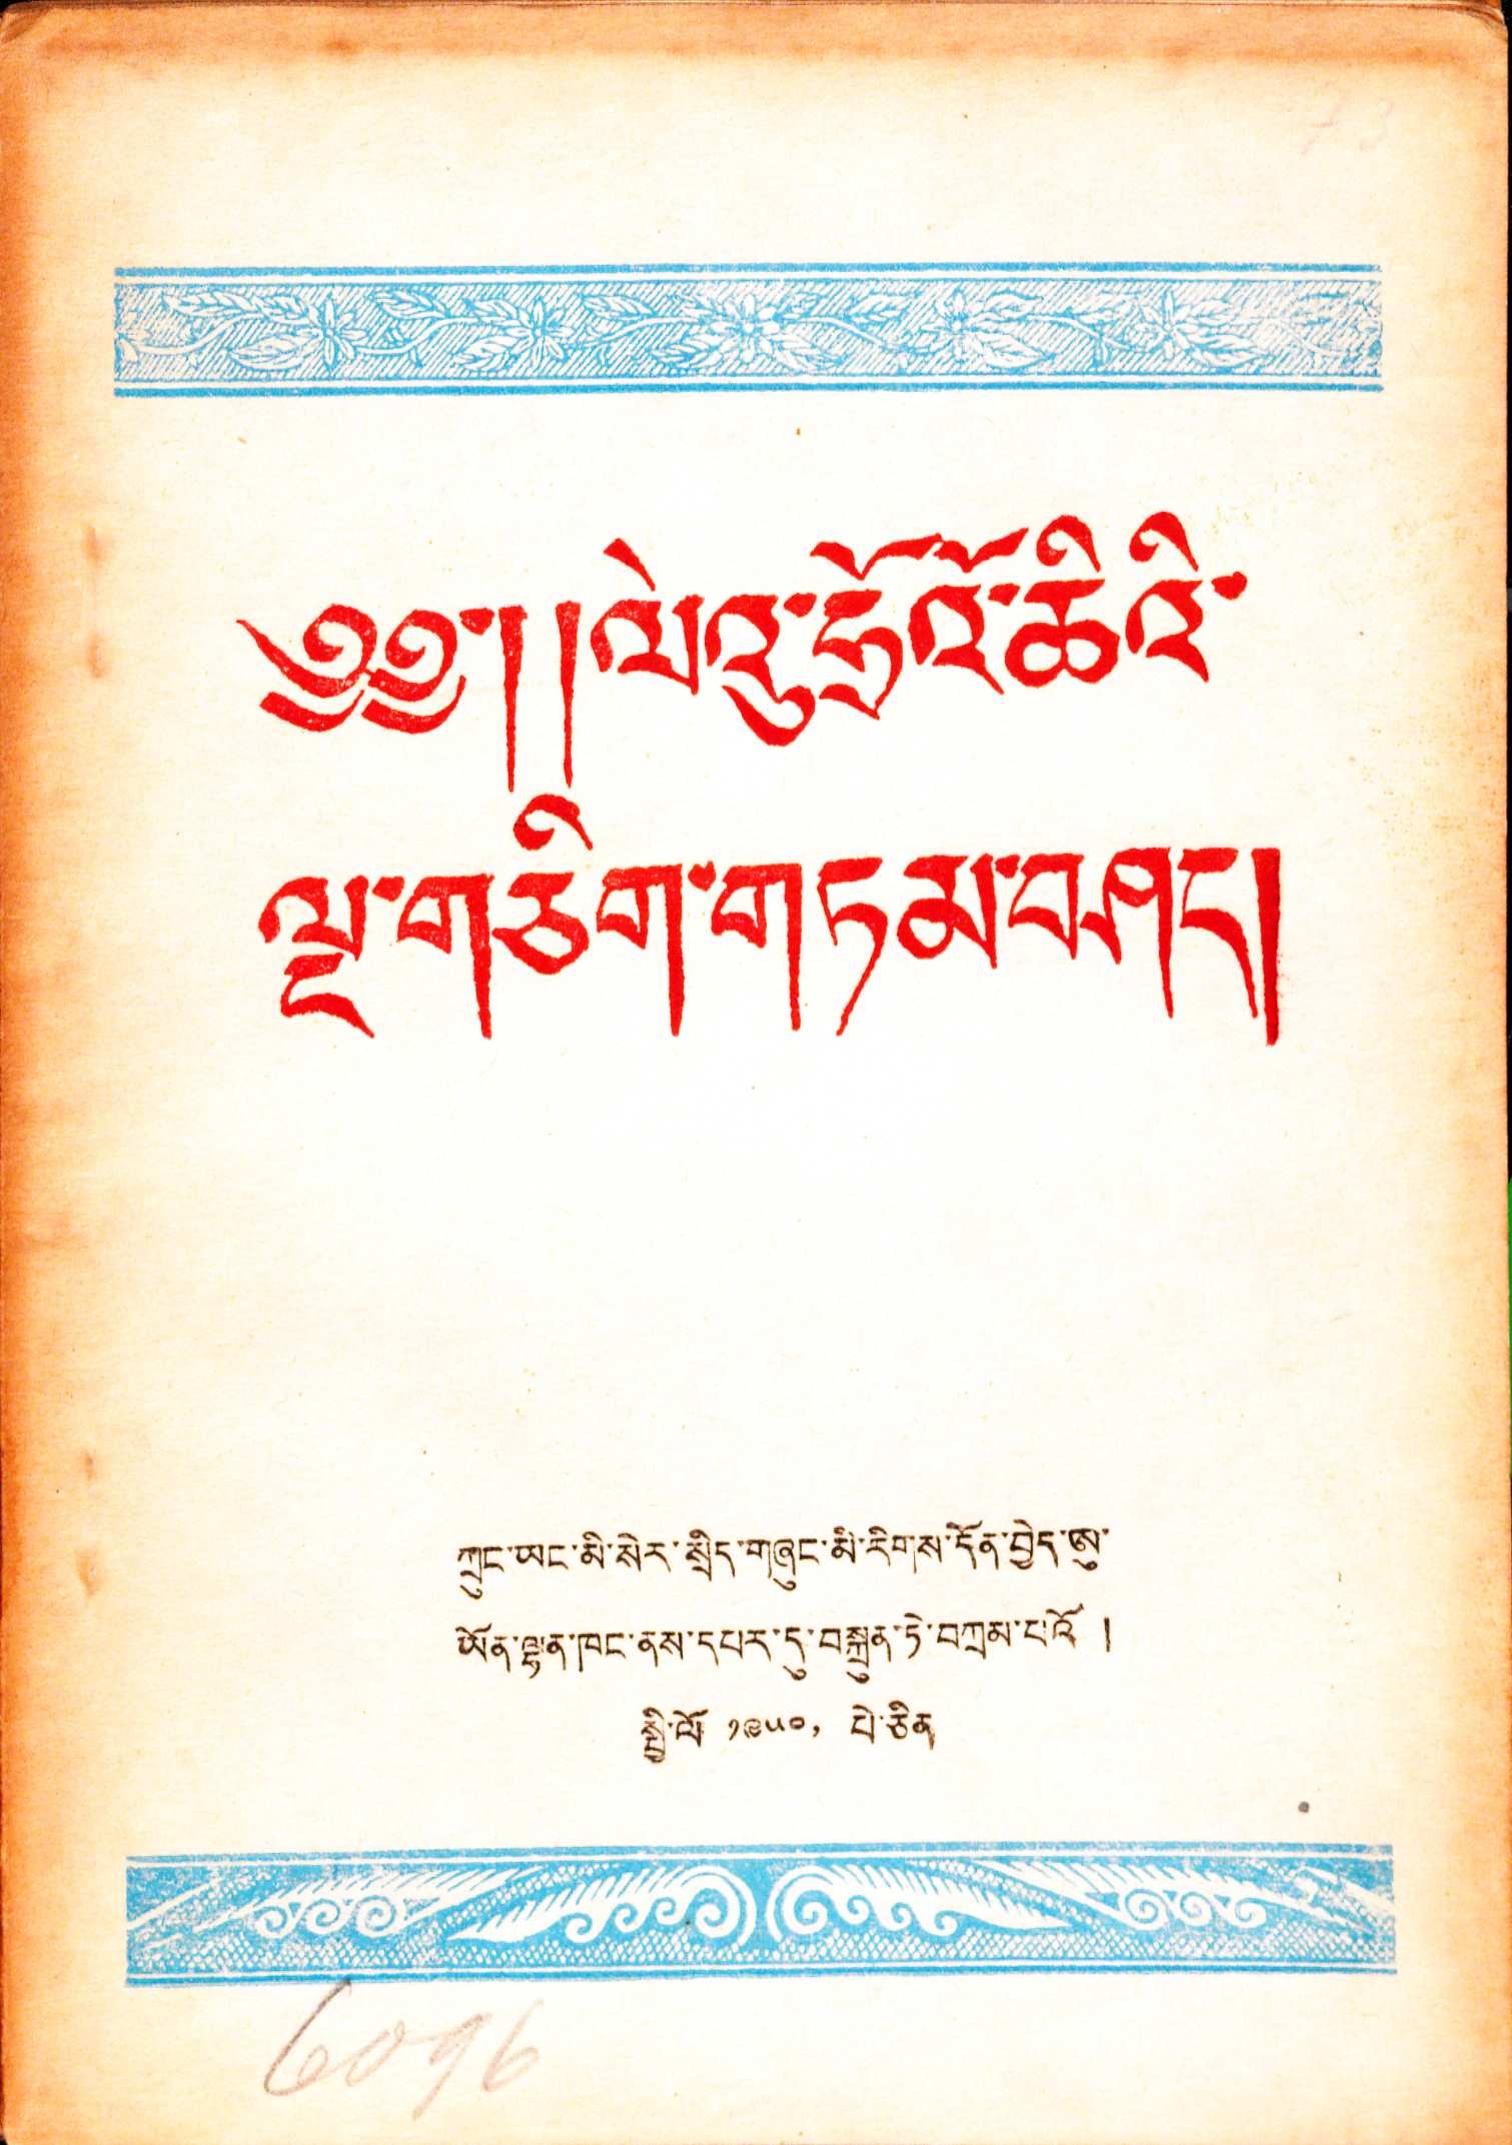༄༅་།།ལེའུ་ཧྲོའོ་ཆིའི་
ལྔ་གཅིག་གཏམ་བཤད།
ཀྲུང་ཡང་མི་སེར་སྲིད་གཞུང་མི་རིགས་དོན་བྱེད་ཨུ་
ཡོན་ལྷན་ཁང་ནས་དཔར་དུ་བསྐྲུན་ཏེ་བཀྲམ་པའོ །
སྤྱི་ལོ ༡༩༥༠, པེ་ཅིན
